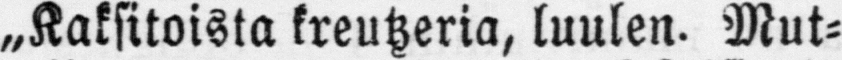„Kaksitoista kreutzeria, luulen. Mut-
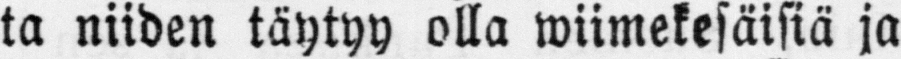ta niiden täytyy olla wiimekesäisiä ja
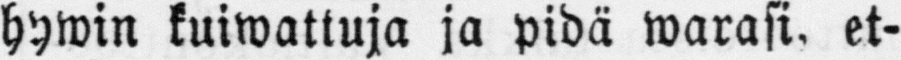hywin kuiwattuja ja pidä warasi, et-
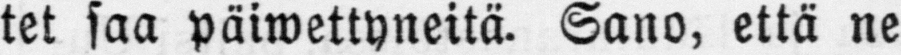tet saa päiwettyneitä. Sano, että ne
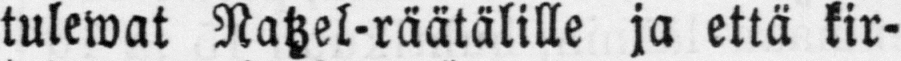tulewat Natzel-räätälille ja että kir-
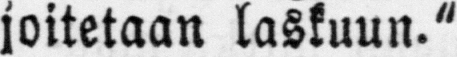joitetaan laskuun."
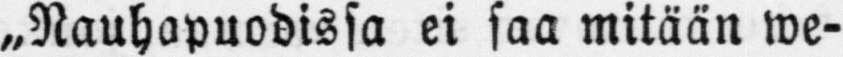„Nauhapuodissa ei saa mitään we-
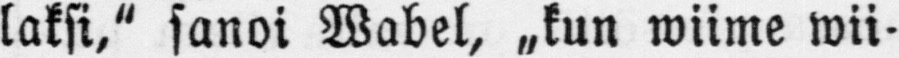laksi," sanoi Wabel, „kun wiime wii-
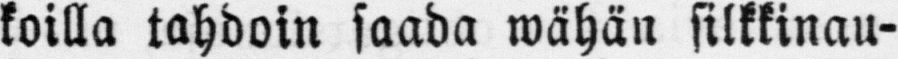koilla tahdoin saada wähän silkkinau-
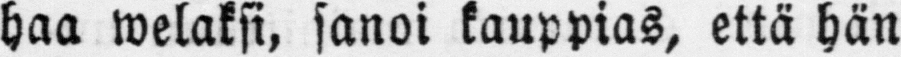haa welaksi, sanoi kauppias, että hän
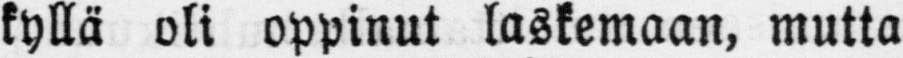kyllä oli oppinut laskemaan, mutta
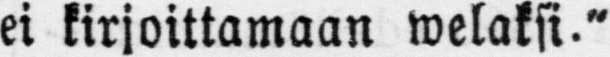ei kirjoittamaan welaksi."
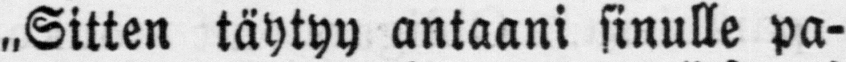„Sitten täytyy antaani sinulle pa-
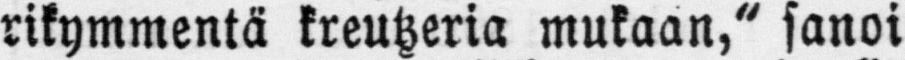rikymmentä kreutzeria mukaan," sanoi
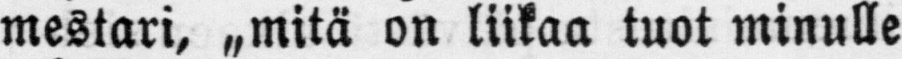mestari, „mitä on liikaa tuot minulle
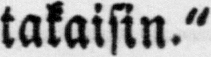takaisin."
